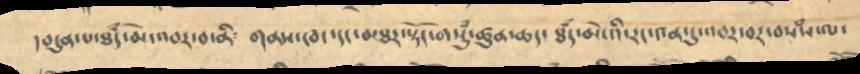།བདུན་པ་ཐཾད་མེ་འབར་བ་ནི༴  གནས་ཁང་དང་མཐར་སྟོང་གསུཾ་ཚུན་ཆད་ཐཾད་མེ་འི་རང་༤ན་དུ་འབར་བར་བསཾས་ལ་
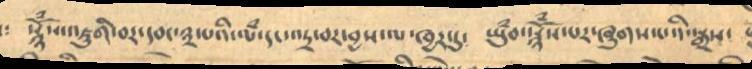སྙོཾས་འཇུགི་བར་དབང་༣་པའི་ལཾ་དང་འདྲ་བར་བྱས་ལ་ཁྱར་དུ་ ཡུཾབ་སྙོཾས་ར་ཞུགས་པའི་སྒྲས་
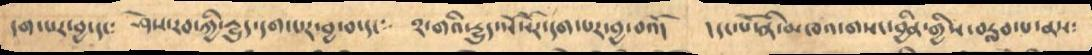དག་པར་བྱ་དང༴  ཤེས་རབ་ཀྱི་རྱུད་དག་པར་བྱ་བ་དང༴  ༢་གའི་རྱུད་སོ་སོར་དག་པར་བྱ་བའོ།   །དང་པོ་ནི་མཁའ་གསང་བྱིན་གྱིས་བརླབ་པ་ནས༴
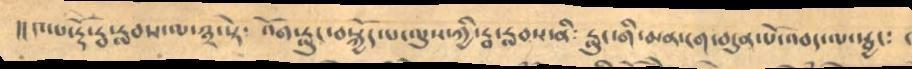།། དང་པ་རྡོ་རྭ་རླབས་ལ་༣་སྟེ༴ འོག་རླུང་བསྐྱོང་པ་ལུས་ཀྱི་རྦ་རླབས་ནི༴ རླུང་གི་མན་དག་བདུན་པོ་འབད་ལ་སྦྱང༴
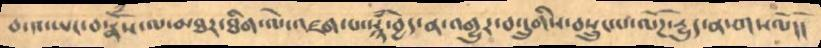བ་༤་ཡང་བསྣོཾས་ལ་མཐར་ཐིག་ལེ་འཇག་པ་སྙཾ་བྱེད་ན་འགྱུར་བ་དྲུགིས་བསྲུངང་པ་ལོཌ་རྱུད་ན་གསལོ།།
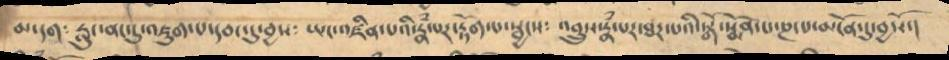མ་དག་ རླུང་ནང་དུ་འཇུག་པ་དབང་དུ་བྱས༴ ཡང་འཇིག་པའི་རྣཾ་པར་རྟོག་པ་སྦྱངས༴ འབྲུས་རྣཾ་པར་ཐར་བའི་སྒོ་སྨོན་པ་ཎ་པ་མདོན་དུ་བྱསོ་།
